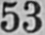53
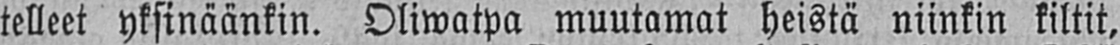telleet yksinäänkin. Oliwatpa muutamat heistä niinkin kiltit,
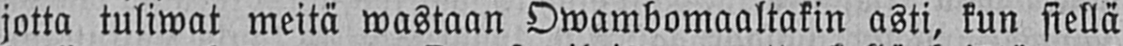jotta tuliwat meitä wastaan Owambomaaltakin asti, kun siellä
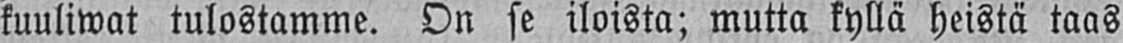kuuliwat tulostamme. On se iloista; mutta kyllä heistä taas
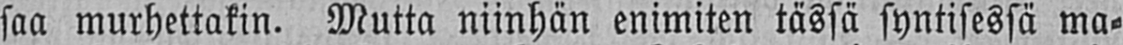saa murhettakin. Mutta niinhän enimiten tässä syntisessä ma-
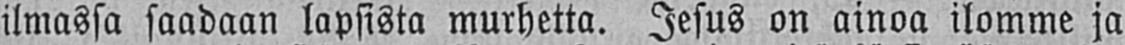ilmassa saadaan lapsista murhetta. Jesus on ainoa ilomme ja
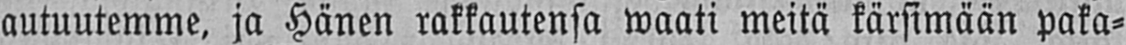autuutemme, ja Hänen rakkautensa waati meitä kärsimään paka-
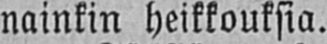nainkin heikkouksia.
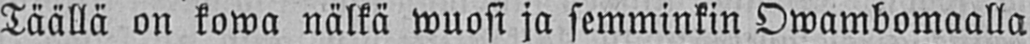Täällä on kowa nälkä wuosi ja semminkin Owambomaalla
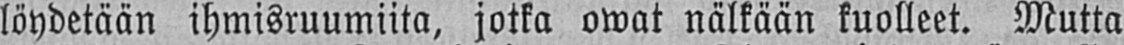löydetään ihmisruumiita, jotka owat nälkään kuolleet. Mutta
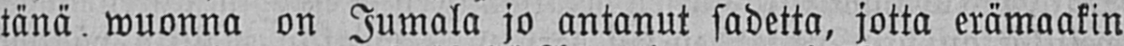tänä wuonna on Jumala jo antanut sadetta, jotta erämaakin
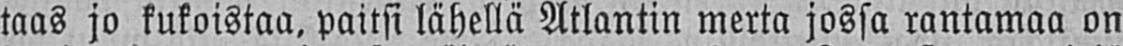taas jo kukoistaa, paitsi lähellä Atlantin merta jossa rantamaa on
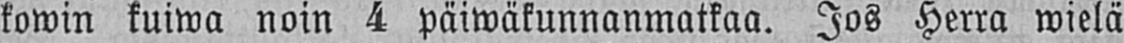kowin kuiwa noin 4 päiwäkunnanmatkaa. Jos Herra wielä
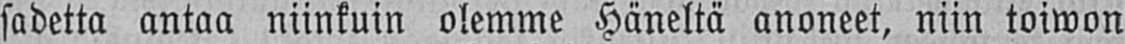sadetta antaa niinkuin olemme Häneltä anoneet, niin toiwon
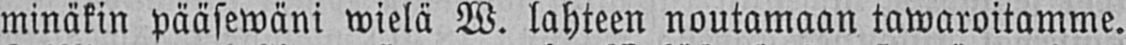minäkin pääsewäni wielä W. lahteen noutamaan tawaroitamme.
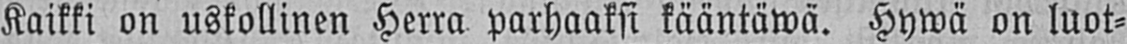Kaikki on uskollinen Herra parhaaksi kääntäwä. Hywä on luot-
